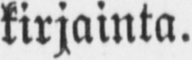kirjainta.
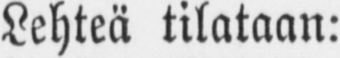Lehteä tilataan:
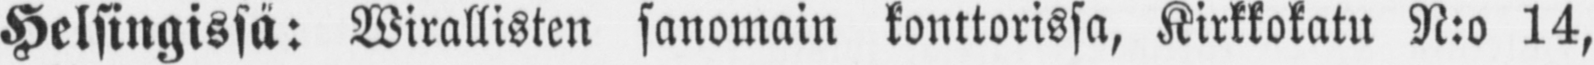Helsingissä: Wirallisten sanomain konttorissa, Kirkkokatu N:o 14,
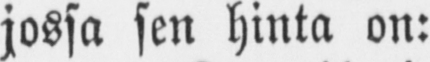jossa sen hinta on:
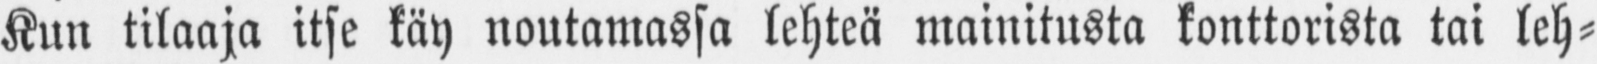Kun tilaaja itse käy noutamassa lehteä mainitusta konttorista tai leh-
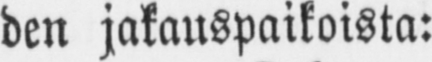den jakauspaikoista:
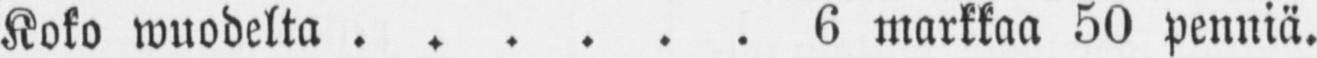Koko wuodelta 6 markkaa 50 penniä.
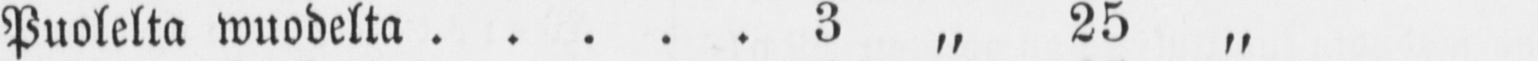Puolelta wuodelta 3 „ 25 „
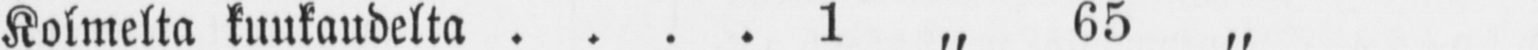Kolmelta kuukaudelta 1 „ 65 „
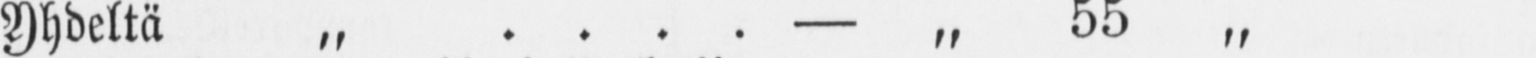Yhdeltä „ - 55 „
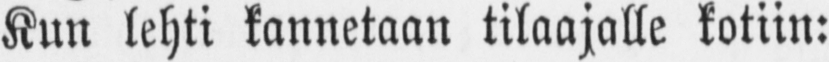Kun lehti kannetaan tilaajalle kotiin:
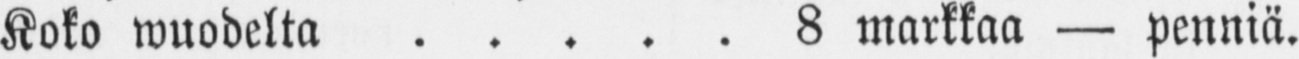Koko wuodelta 8 markkaa — penniä.
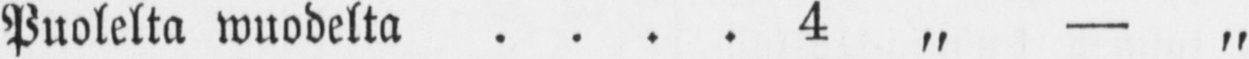Puolelta wuodelta 4 „ — „
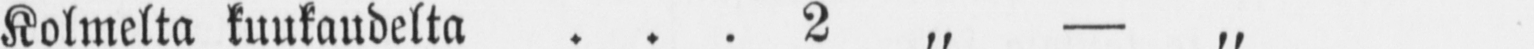Kolmelta kuukaudelta 2 „ — „
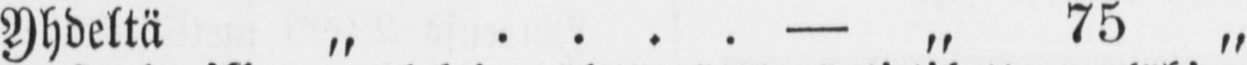Yhdeltä „ — „ 75 „
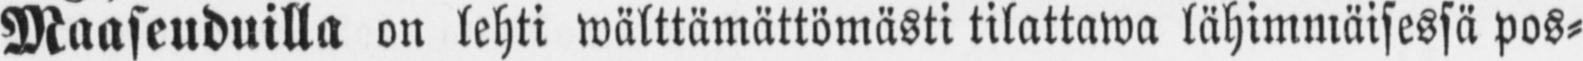Maaseuduilla on lehti wälttämättömästi tilattawa lähimmäisessä pos-
